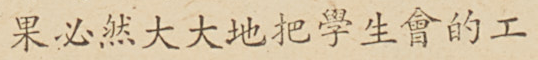果必然大大地把學生會的工
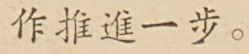作推進一步。
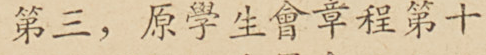第三，原學生會章程第十
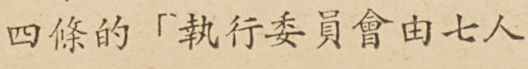四條的「執行委員會由七人
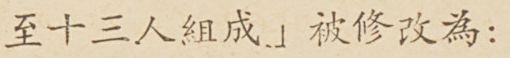至十三人組成」被修改為：
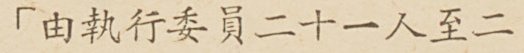「由執行委員二十一人至二
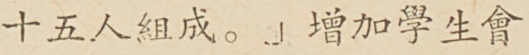十五人組成。」增加學生會
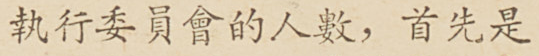執行委員會的人數，首先是
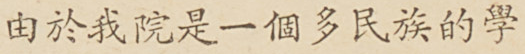由於我院是一個多民族的學
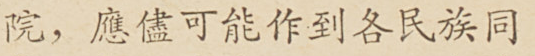院，應儘可能作到各民族同
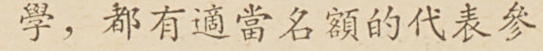學，都有適當名額的代表參
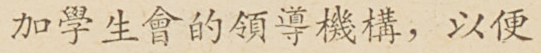加學生會的領導機構，以便
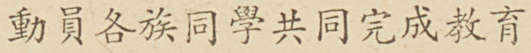動員各族同學共同完成教育
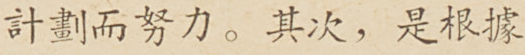計劃而努力。其次，是根據
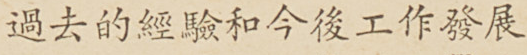過去的經驗和今後工作發展
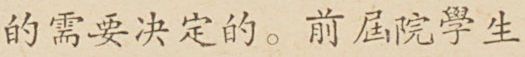的需要決定的。前屆院學生
